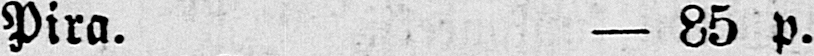Pira. — 85 p.
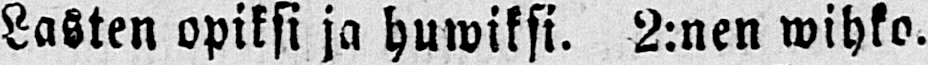Lasten opiksi ja huwiksi. 2:nen wihko.
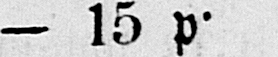- 15 p•
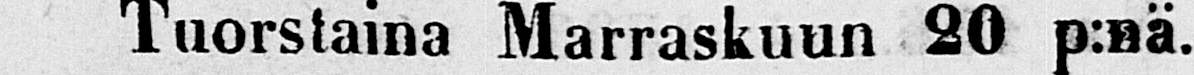Tuorstaina Marraskuun 20 p:nä.
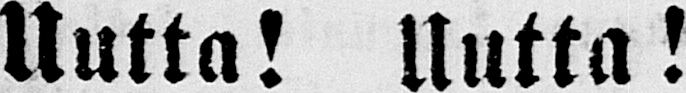Uutta! Uutta!
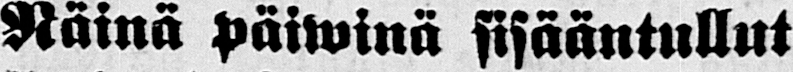Näinä Päiwin ä sis ä äntullut.
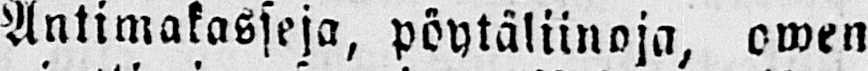Antimakasseja, pöytäliinoja, owen
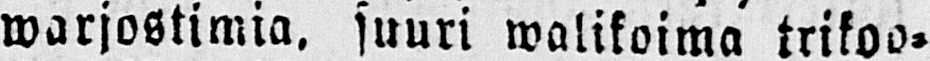warjostimia, suuri walikoima trikoo-
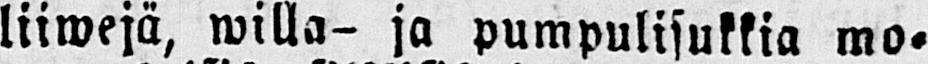liiwejä, willa- ja pumpulisukkia mo-
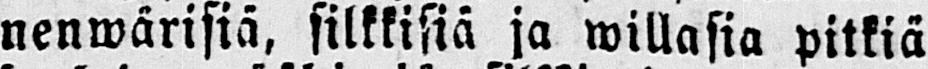nenwärisiä, silkkisiä ja willasia pitkiä
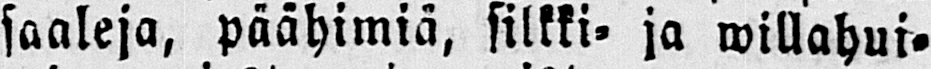saaleja, päähimiä, silkki- ja willahui-
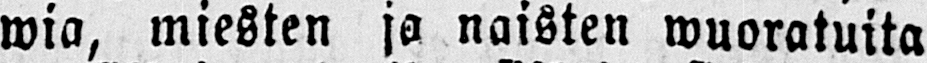wia, miesten ja naisten wuoratuita
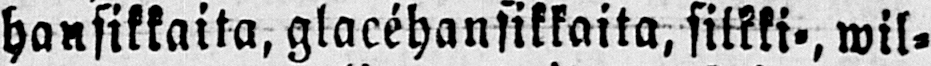hansikkaita, glacéhansikkaita, silkki-, wil-
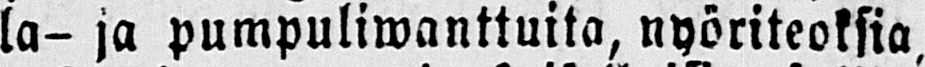la- ja pumpuliwanttuita, nyöriteoksia,
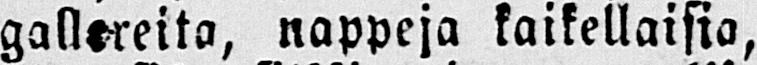gallereita, nappeja kaikellaisiaa, solkia,
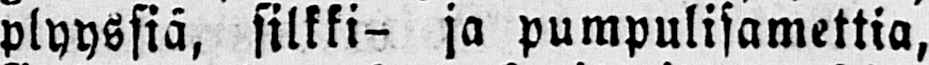plyyssiä, silkki- ja pumpulisamettia,
